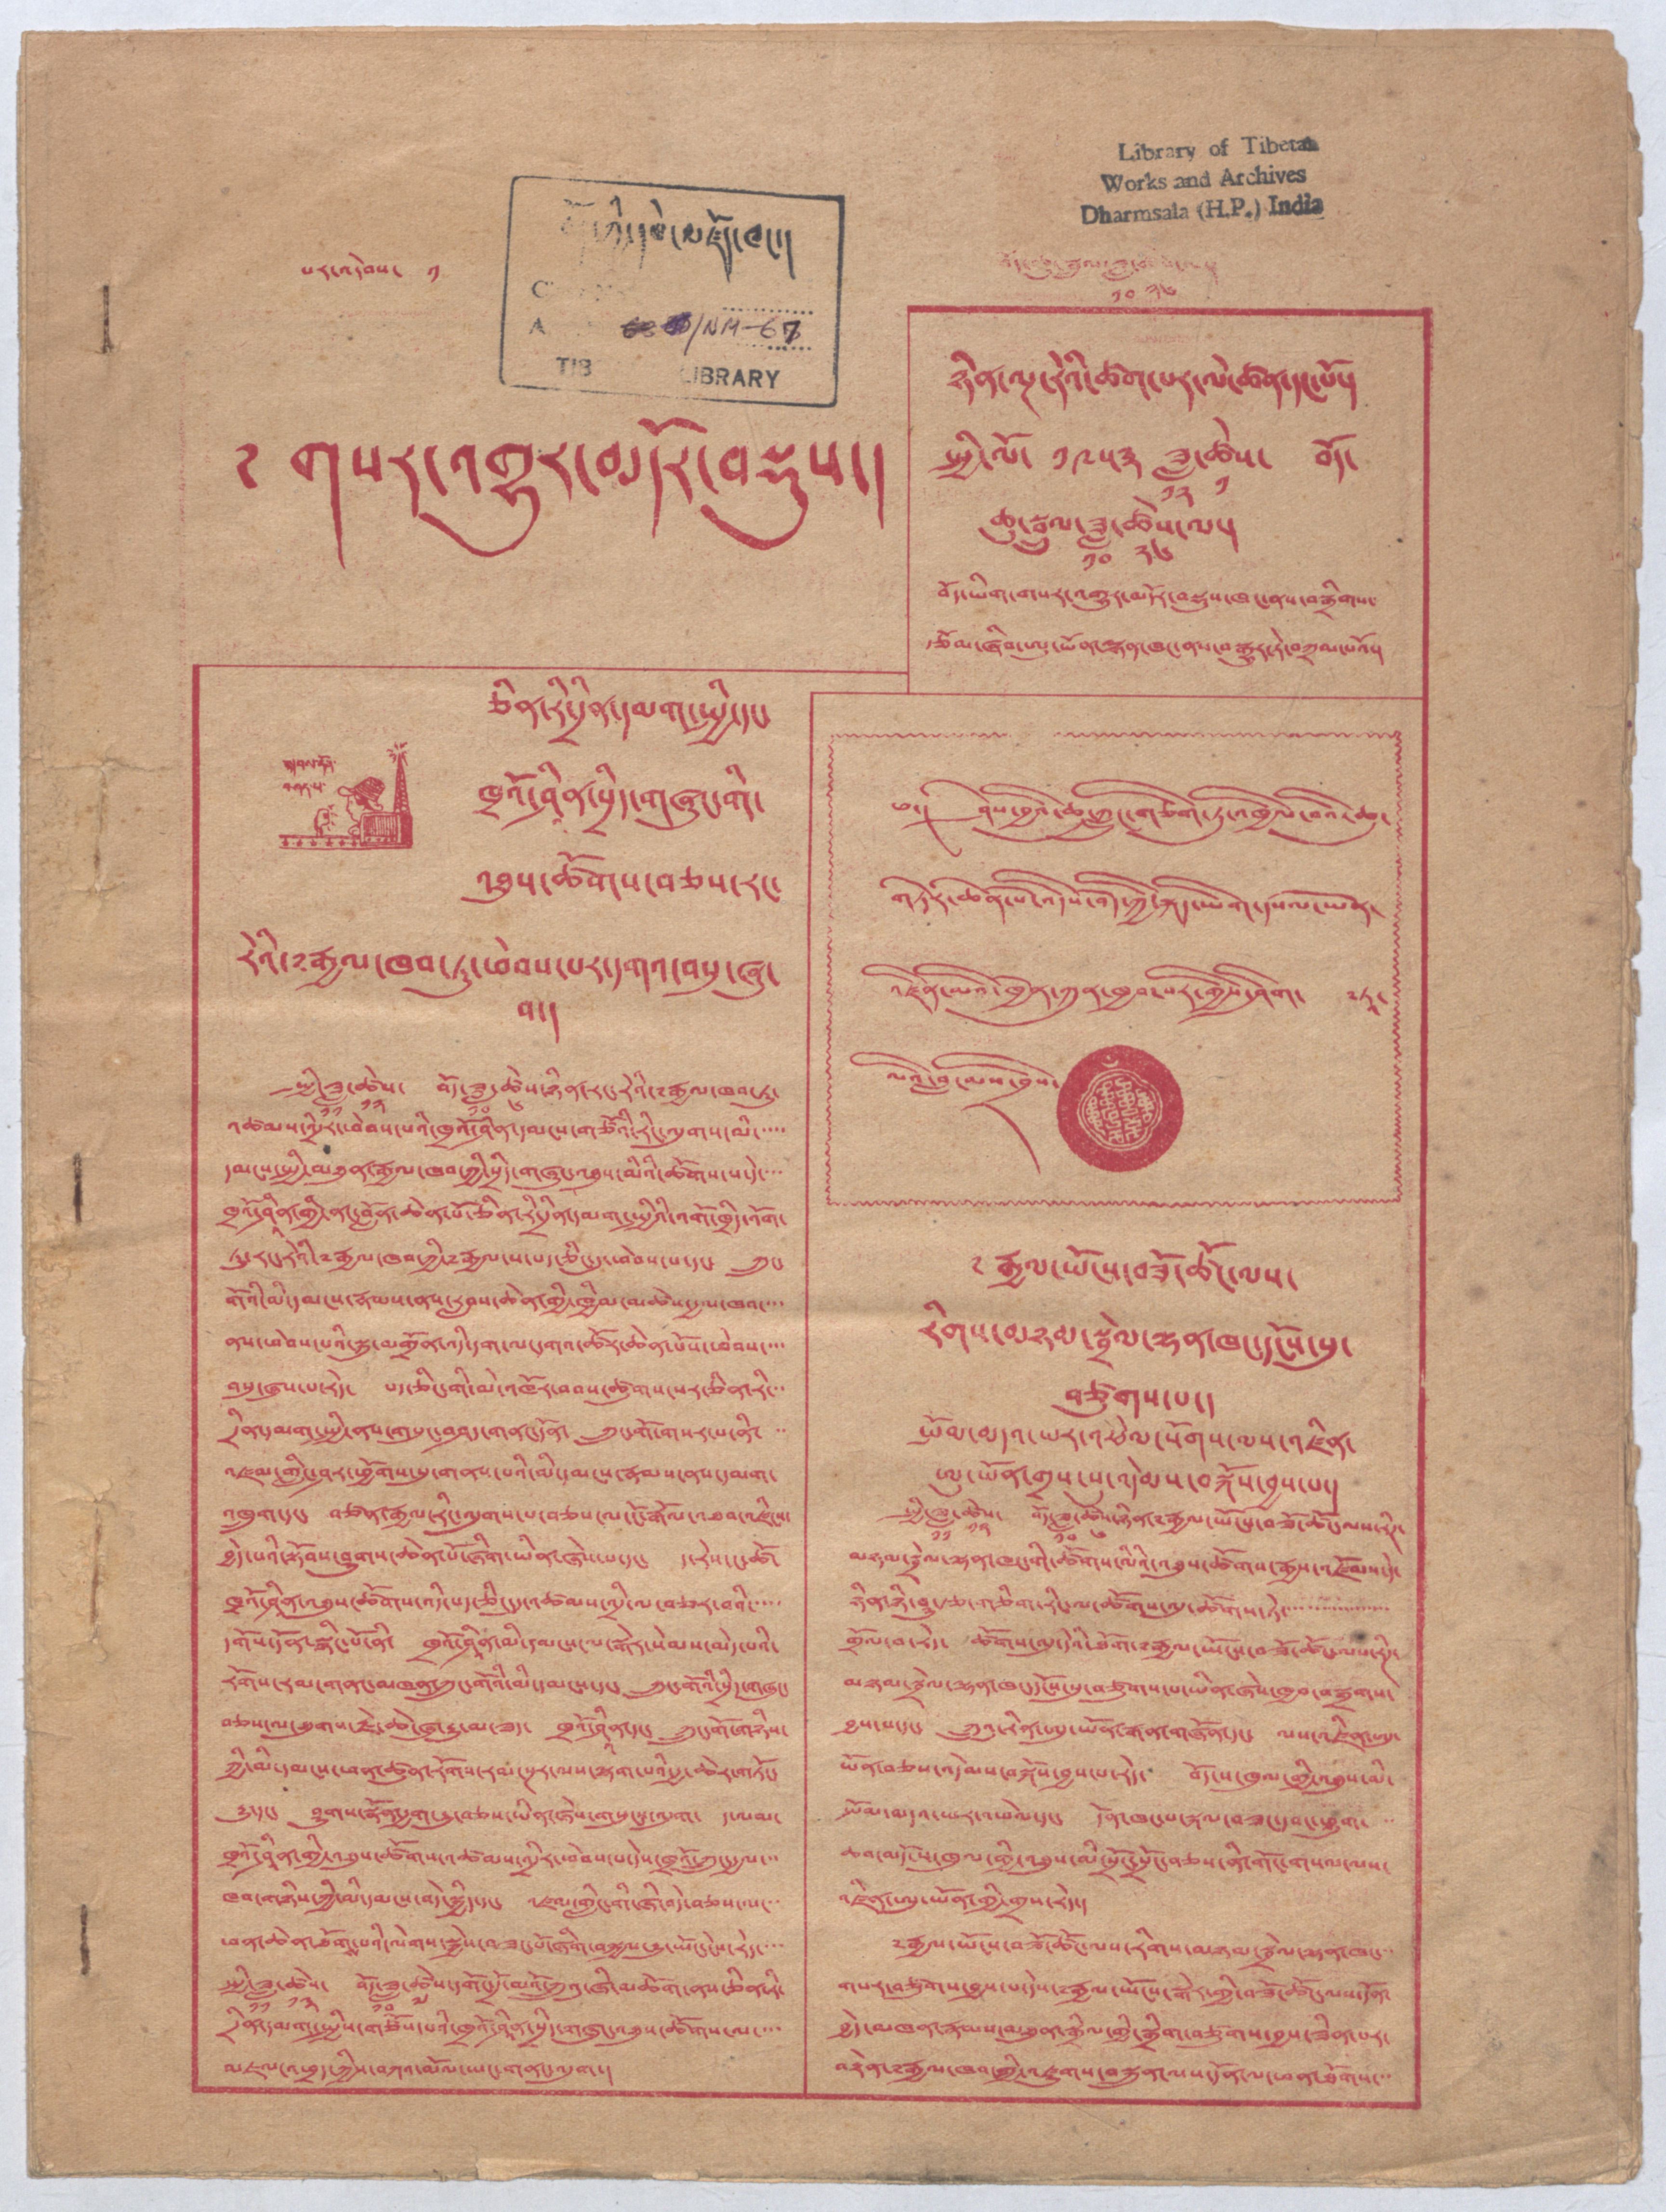པར་འདེབས་ ༡ བོད་ཆུ་སྦྲུལ་ཟླ་བ་
༡༠
ཚེས་
༢༦
ལ།
༄ གསར་འགྱུར་མདོར་བསྡུས།
ཉིན་ལྔ་རེའི་ཚག་པར་ལེ་ཚན་དང་པོ།
སྤྱི་ལོ་ ༡༩༥༣ ཟླ་
༡༢
ཚེས་
༡
བོད་
ཆུ་སྦྲུལ་ཟླ་
༡༠
ཚེས་
༢༦
ལ།
བོད་ཡིག་གསར་འགྱུར་མདོར་བསྡུས་ཁང་ནས་བསྒྲིགས་
རྩོམ་ཞིག་ཨུ་ཡོན་ལྷན་ཁང་ནས་བསྒྱུར་ཏེ་བཀྲལ་པའོ།
སྐབས་དོན་
བཤད་པ་
ཅིན་རི་དྲིན་དམག་སྤྱི་དང་
ཁྲའོ་ཤིན་སྲིད་གཞུང་གི་
འཐུས་ཚོགས་བཅས་རང་
རེའེ་༸རྒྱལ་ཁབ་ཏུ་ཕེབས་པར་དགའ་བསུ་ཞུ་
བ།
སྤྱི་ཟླ་
༡༡
ཚེས་
༡༢
བོད་ཟླ་
༡༠
ཚེས་
༦
ཉིན་རང་རེའི་༸རྒྱལ་ཁབ་རུ་
འཚམས་འདྲིར་ཕེབས་པའི་ཁྲའོ་ཤིན་དམངས་གཙོའི་རིང་ལུགས་མི་་་་
དམངས་སྤྱི་མཐུན་རྒྱལ་ཁབ་ཀྱི་སྲིད་གཞུང་འཐུས་མིའི་ཚོགས་པ་དེ་་་་
ཁྲའོ་ཤཱིན་གྱི་ནང་བློན་ཆེན་པོ་ཅིན་རི་དྲིན་དམག་སྤྱིའི་འགོ་ཁྲིད་འོག་
ཏུ་རང་རེའི་༸རྒྱལ་ཁབ་ཀྱི་༸རྒྱལ་ས་པད་ཅིང་དུ་ཕེབས་པ་དང་ ཀྲུང་
གོའི་མི་དམངས་རྣམས་ནས་རླངས་ཆེན་གྱི་ཁྱིམ་མཚེས་རྒྱལ་ཁབ་་་་
ནས་ཕེབས་པའི་སྐུ་མགྲོན་འདི་དག་ལ་དགའ་ཚོར་ཆེན་པོས་ཕེབས་་་
བསུ་ཞུས་པ་རེད། པད་ཅིང་གི་མེ་འཁོར་བབས་ཚུགས་སར་ཅིན་རི་་་
དྲིན་དམག་སྤྱི་ནས་གསུང་བཤད་གནང་དོན་ ཀྲུང་གོ་གསར་པ་ནི་་
འཛམ་གླིང་ཤར་ཕྱོགས་སུ་གནས་པའི་མི་དམངས་རྣམས་ནས་དམག་
འཁྲུག་དང་ བཙན་རྒྱལ་རིང་ལུགས་པ་བཅས་ལ་ངོ་རྒོལ་འཐབ་འཛིངས་
བྱེད་པའི་སྟོབས་ཤུགས་ཆེན་པོ་ཞིག་ཡིན་ཞེས་པ་དང་ ད་རེས་ང་ཚོ་
ཁྲའོ་ཤིན་འཐུས་ཚོགས་འདི་པད་ཅིང་དུ་འཚམས་འདྲི་ལ་བཅར་བའི་་་་་
དགོས་དོན་སྙིང་པོ་ནི་ ཁྲའོ་ཤཱིན་མི་དམངས་ལ་སྒེར་སེམས་མེད་པའི་
རོགས་རམ་གནང་མཁང་ཀྲུང་གོའི་མི་དམངས་དང་ ཀྲུང་གོའི་སྲིད་གཞུང་
བཅས་ལ་ཐུགས་རྗེ་ཆེ་རྒྱུ་མ་ཟད་ ཁྲའོ་ཤཱིན་དང་ ཀྲུང་གོ་གཉིས་
ཀྱི་མི་དམངས་ཕན་ཚུན་རོགས་རམ་སྔར་ལས་ལྷག་པའི་རྒྱ་ཆེར་གཏོང་
རྒྱུ་དང་ ཤུགས་སྣོན་རྒྱག་རྒྱུ་བཅས་ཡིན་ཞེས་གསུངས་ལུག ད་ལམ་
ཁྲའོ་ཤཱིན་གྱི་འཐུས་ཚོགས་འཚམས་འདྲིར་ཕེབས་པ་དེས་ཁྲའོ་ཀྲུང་རྒྱལ་་་
ཁབ་གཉིས་ཀྱི་མི་དམངས་བདེ་སྐྱིད་དང་ འཛམ་གླིང་གི་ཞི་བདེ་བཅས་ལ་་་
ཕན་ཆེན་ཐོགས་པའི་ལེགས་སྐྱེས་བཟང་པོ་ཞིག་བསྐྱལ་རྒྱུ་ཡིང་ངེས་རེད་་་་
སྤྱི་ཟླ་
༡༡
ཚེས་
༡༣
བོད་ཟླ་
༡༠
ཚེས་
༧
དགོང་དྲོ་མའོ་ཀྲུའུ་ཞི་མཆོག་ནས་ཅིན་རི་
དྲིན་དམག་སྤྱིས་གཅོས་པའི་ཁྲའོ་ཤཱིན་སྲིད་གཞུང་འཐུས་ཚོགས་ལ་་་་
མཇལ་འཕྲད་ཀྱིས་བཀའ་མོལ་ཡང་གནང་འདུག།
༄། ཤེས་བྱའི་ཆུ་ཀླུང་གཅིག་ཏུ་འཁྱིལ་བའི་ཆུ་
གཏེར་ཆེན་པོ་འདིས་བོད་ཀྱི་སྐད་ཡིག་དཔལ་ཡོན་
འཛིན་མའི་ཁྱོན་ཀུན་ཁྱབ་པར་གྱིས་ཤིག་ ༸ཏཱ་
ལའི་བླ་མས་བྲིས་
༸རྒྱལ་ཡོངས་བཟོ་ཚོང་ལས་
རིགས་མཉམ་སྦྲེལ་ལྷན་ཁང་དངོས་སུ་
བཙུགས་པ།
སྤོམ་བདའ་ཡར་འཕེལ་སོགས་མས་འཛིན་
ཨུ་ཡོན་གྲས་སུ་འདེམས་བསྐོས་བྱས་པ།
སྤྱི་ཟླ་
༡༡
ཚེས་
༡༢
བོད་ཟླ་
༡༠
ཚེས་
༦
ཉིན་༸རྒྱལ་ཡོངས་བཟོ་ཚོང་ལས་རིཌ་
མཉམ་སྦྲེལ་ལྷན་ཁང་གི་ཚོགས་མིའི་འཐུས་ཚོགས་རྒྱས་འཛོམས་དེ་
ཉིན་ཉི་ཤུ་ཙ་གཅིག་རིང་ལ་ཚོགས་འདུ་ཚོགས་ཏེ་་་་་་་་་་་་་་་་་་་་་་་་་་་་
གྲོལ་བ་རེད། ཚོགས་ལུ་དེའི་ཐོག་༸རྒྱལ་ཡོངས་བཟོ་ཚོང་ལས་རིཌ་
མཉམ་སྦྲེལ་ལྷན་ཁང་དངོས་སུ་བཙུགས་པ་ཡིན་ཞེས་ཁྱབ་བསྒྲགས་
བྱས་པ་དང་ ཀྲུའུ་རིན་ཨུ་ཡོན་རྒན་གཞོན་དང་ ལས་འཛིན་ཨུ་
ཡོན་བཅས་འདེབས་བསྐོས་བྱས་པ་རེད བོད་ས་ཁུལ་གྱི་འཐུས་མི་
སྤོམ་མདའ་ཡར་འཕེལ་དང་ དོན་ཁངས་སྐལ་བཟང་དནང་ཕྱུག་་
ཆབ་མདོ་ས་ཁུལ་གྱི་འཐུས་མི་སྲོང་སྲོང་བཅས་ནི་གོང་གསལ་ལས་
འཛིན་ཨུ་ཡོན་གྱི་གྲས་རེད།
༸རྒྱལ་ཡོངས་བཟོ་ཚོང་ལས་རིགས་མཉམ་སྦྲེལ་ལྷན་ཁང་་་
གསར་བཙུགས་བྱས་པ་དེས་༸རྒྱལ་ཡོངས་སྒེར་གྱི་བཟོ་ཚོང་ལས་དོན་
བྱེད་མཁན་རྣམས་མཐུན་སྒྲིལ་གྱི་སྒྲིག་བཙུགས་བྱས་ཟིན་པར་
བརྟེན་༸རྒྱལ་ཁབ་ཀྱི་འཛུགས་བསྐྲུན་ལས་དོན་ལ་ཕན་ཐོགས་་་
